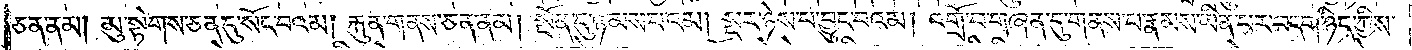ཅན་ནམ། མུ་སྟེགས་ཅན་དུ་སོང་བའམ། རྐུན་གནས་ཅན་ནམ། སྔོན་དུ་ཉམས་པའམ། སྔར་ཉེས་པ་བྱུང་བའམ། འགྲོ་བ་གཞན་དུ་གནས་པ་རྣམས་ཡིན་པར་བདག་ཉིད་ཀྱིས་
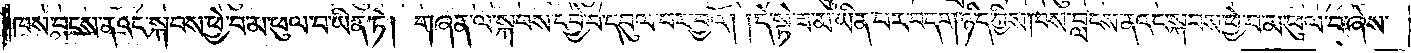ཁས་བླངས་ནའང་སྐབས་ཕྱེ་བ་མ་ཕུལ་བ་ཡིན་ཏེ། གཞན་ལ་སྐབས་དབྱེ་བ་དབུལ་བར་བྱའོ། །དེ་སྟེ་ཟ་མ་ཡིན་པར་བདག་ཉིད་ཀྱིས་ཁས་བླངས་ནའང་སྐབས་ཕྱེ་བ་མ་ཕུལ་བ་ཞེས་
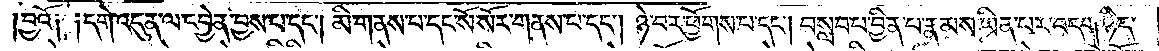བྱའོ༑ ༑དགེ་འདུན་ལ་དབྱེན་བྱས་པ་དང༌། མི་གནས་པ་དང་སོ་སོར་གནས་པ་དང༌། ཉེ་བར་ཕྱོགས་པ་དང༌། བསླང་པ་བྱིན་པ་རྣམས་ཡིན་པར་བདག་ཉིད་
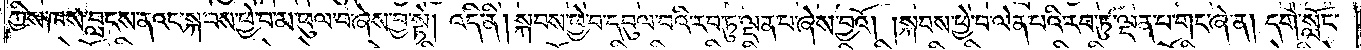ཀྱིས་ཁས་བླངས་ནའང་སྐབས་ཕྱེ་བ་མ་ཕུལ་བ་ཞེས་བྱ་སྟེ། འདི་ནི། སྐབས་ཕྱེ་བ་དབུལ་བའི་རབ་ཏུ་ལྡན་པ་ཞེས་བྱའོ། །སྐབས་ཕྱེ་བ་ལེན་པའི་རབ་ཏུ་ལྡན་པ་གང་ཞེ་ན། དགེ་སློང་
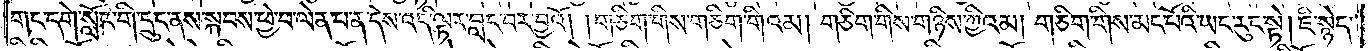གང་དགེ་སློང་གི་དྲུང་ནས་སྐབས་ཕྱེ་བ་ལེན་པ་ན་དེས་འདི་ལྟར་བླང་བར་བྱའོ། །གཅིག་གིས་གཅིག་གིའམ། གཅིག་གིས་གཉིས་ཀྱིའམ། གཅིག་གིས་མང་པོའི་ཡང་རུང་སྟེ། ཇི་སྙེད་
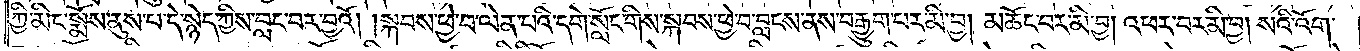ཀྱི་མིང་སྨོས་ནུས་པ་དེ་སྙེད་ཀྱིས་བླང་བར་བྱའོ། །སྐབས་ཕྱེ་བ་ལེན་པའི་དགེ་སློང་གིས་སྐབས་ཕྱེ་བ་བླངས་ནས་བརྒྱུག་པར་མི་བྱ། མཆོང་པར་མི་བྱ། འཕར་བར་མི་བྱ། སའི་འོག་
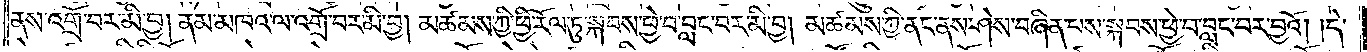ནས་འགྲོ་བར་མི་བྱ། ནམ་མཁའ་ལ་འགྲོ་བར་མི་བྱ། མཚམས་ཀྱི་ཕྱི་རོལ་ཏུ་སྐབས་ཕྱེ་བ་བླང་བར་མི་བྱ། མཚམས་ཀྱི་ནང་ནས་ཤེས་བཞིན་པས་སྐབས་ཕྱེ་བ་བླང་བར་བྱའོ། །དེ་
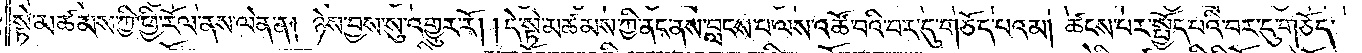སྟེ་མཚམས་ཀྱི་ཕྱི་རོལ་ནས་ལེན་ན། ཉེས་བྱས་སུ་འགྱུར་རོ། །དེ་སྟེ་མཚམས་ཀྱི་ནང་ནས་བླངས་པ་ལས་འཚོ་བའི་བར་དུ་གཅོད་པའམ། ཚངས་པར་སྤྱོད་པའི་བར་དུ་གཅོད་
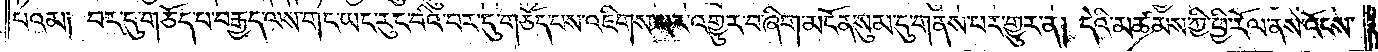པའམ། བར་དུ་གཅོད་པ་བརྒྱད་ལས་གང་ཡང་རུང་བའི་བར་དུ་གཅོད་པས་འཇིགས་པར་འགྱུར་བ་ཞིག་མངོན་སུམ་དུ་གནས་པར་གྱུར་ན། དེའི་མཚམས་ཀྱི་ཕྱི་རོལ་ནས་འོངས་
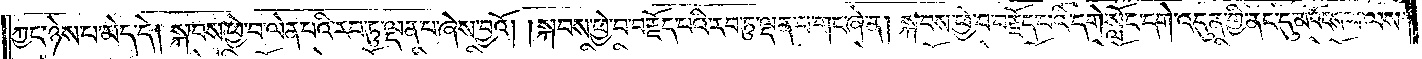ཀྱང་ཉེས་པ་མེད་དེ། སྐབས་ཕྱེ་བ་ལེན་པའི་རབ་ཏུ་ལྡན་པ་ཞེས་བྱའོ། །སྐབས་ཕྱེ་བ་བརྗོད་པའི་རབ་ཏུ་ལྡན་པ་གང་ཞེ་ན། སྐབས་ཕྱེ་བ་བརྗོད་པའི་དགེ་སློང་དགེ་འདུན་གྱི་ནང་དུ་མ་འོངས་པ་ལས་
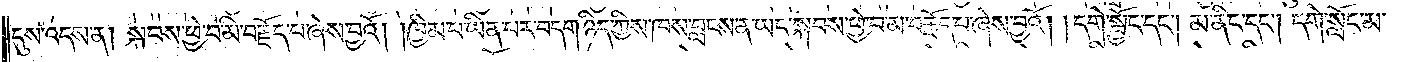དུས་འདས་ན། སྐབས་ཕྱེ་བ་མི་བརྗོད་པ་ཞེས་བྱའོ། །ཁྱིམ་པ་ཡིན་པར་བདག་ཉིད་ཀྱིས་ཁས་བླངས་ན་ཡང་སྐབས་ཕྱེ་བ་མ་བརྗོད་པ་ཞེས་བྱའོ། །དགེ་སྦྱོང་དང༌། མ་ནིང་དང༌། དགེ་སློང་མ་
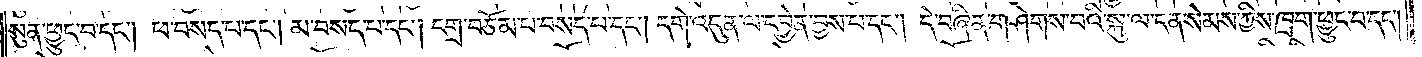སུན་ཕྱུང་བ་དང༌། ཕ་བསད་པ་དང༌། མ་བསད་པ་དང༌། དགྲ་བཅོམ་པ་བསད་པ་དང༌། དགེ་འདུན་ལ་དབྱེན་བྱས་པ་དང༌། དེ་བཞིན་གཤེགས་པའི་སྐུ་ལ་ངན་སེམས་ཀྱིས་ཁྲག་ཕྱུང་བ་དང༌།
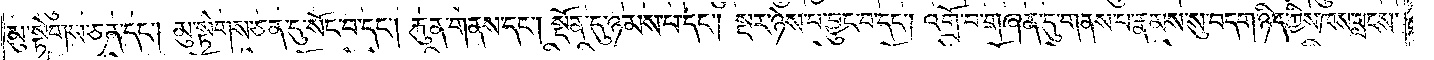མུ་སྟེགས་ཅན་དང༌། མུ་སྟེགས་ཅན་དུ་སོང་བ་དང༌། རྐུན་གནས་དང༌། སྔོན་དུ་ཉམས་པ་དང༌། སྔར་ཉེས་པ་བྱུང་བ་དང༌། འགྲོ་བ་གཞན་དུ་གནས་པ་རྣམས་སུ་བདག་ཉིད་ཀྱིས་ཁས་བླངས་
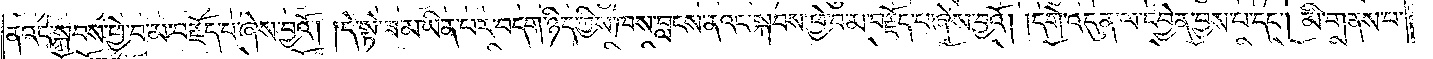ནའང་སྐབས་ཕྱེ་བ་མ་བརྗོད་པ་ཞེས་བྱའོ། །དེ་སྟེ་ཟ་མ་ཡིན་པར་བདག་ཉིད་ཀྱིས་ཁས་བླངས་ནའང་སྐབས་ཕྱེ་བ་མ་བརྗོད་པ་ཞེས་བྱའོ། །དགེ་འདུན་ལ་དབྱེན་བྱས་པ་དང༌། མི་གནས་པ་
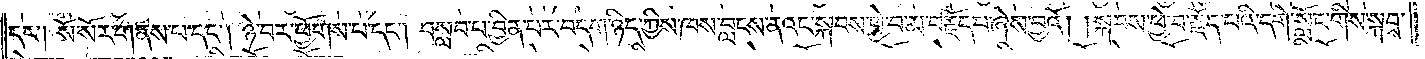དང༌། སོ་སོར་གནས་པ་དང༌། ཉེ་བར་ཕྱོགས་པ་དང༌། བསླབ་པ་བྱིན་པར་བདག་ཉིད་ཀྱིས་ཁས་བླངས་ནའང་སྐབས་ཕྱེ་བ་མ་བརྗོད་པ་ཞེས་བྱའོ། །སྐབས་ཕྱེ་བ་རྗོད་པའི་དགེ་སློང་གིས་སྐབས་
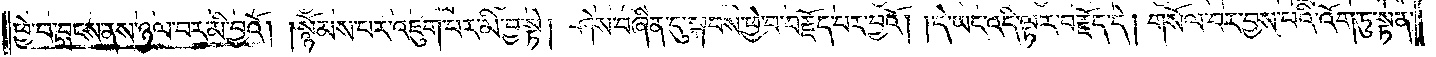ཕྱེ་བ་བླངས་ནས་ཉལ་བར་མི་བྱའོ། །སྙོམས་པར་འཇུག་པར་མི་བྱ་སྟེ། ཤེས་བཞིན་དུ་སྐབས་ཕྱེ་བ་བརྗོད་པར་བྱའོ། །དེ་ཡང་འདི་ལྟར་བརྗོད་དེ། གསོལ་བར་བྱས་པའི་འོག་ཏུ་སྟན་
